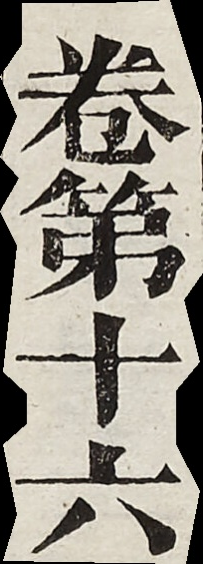卷第十六
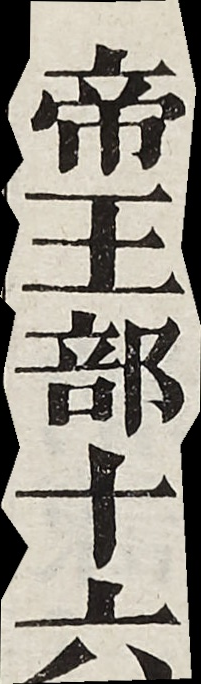帝王部十六
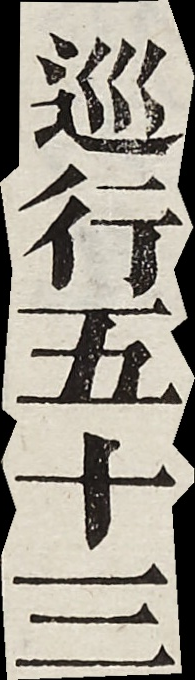巡行五十三
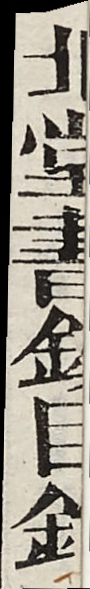北堂書鈔目錄
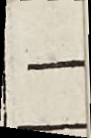一
